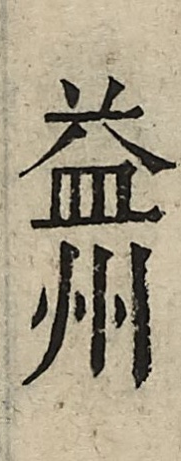益州
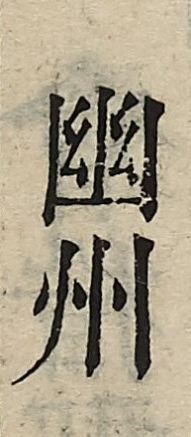幽州
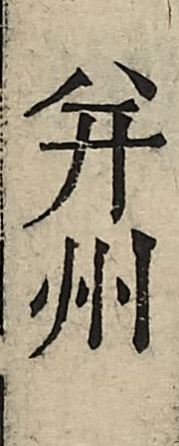并州
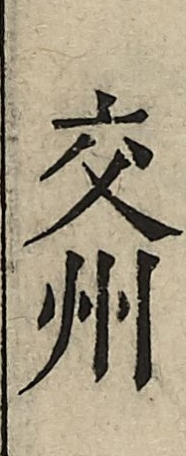交州
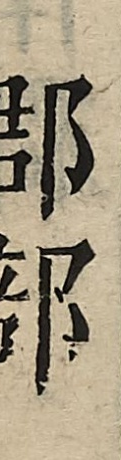郡部
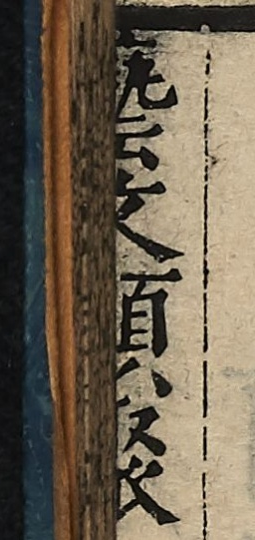藝文類聚
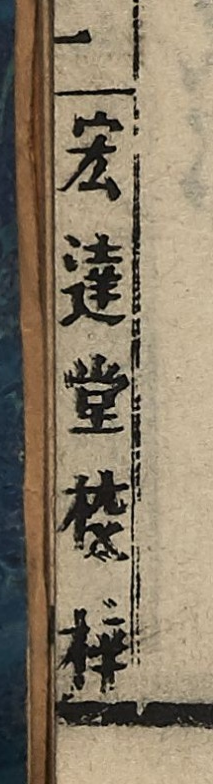宏達堂校梓
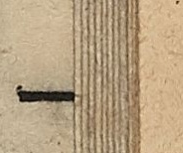一
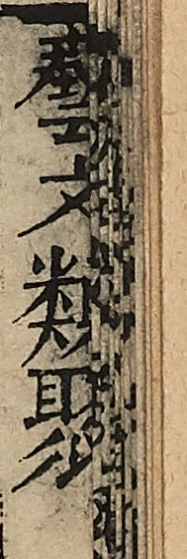藝文類聚
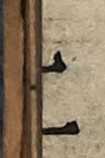二
